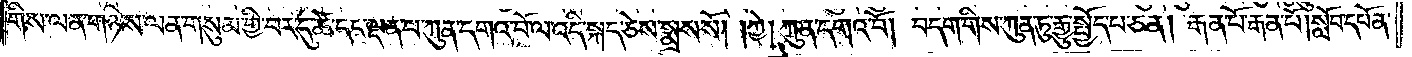གིས་ལན་གཉིས་ལན་གསུམ་གྱི་བར་དུ་ཚེ་དང་ལྡན་པ་ཀུན་དགའ་བོ་ལ་འདི་སྐད་ཅེས་སྨྲས་སོ། །ཀྱེ། ཀུན་དགའ་བོ། བདག་གིས་ཀུན་ཏུ་རྒྱུ་སྤྱོད་པ་ཅན། རྒན་པོ་རྒན་པོ། སློབ་དཔོན་
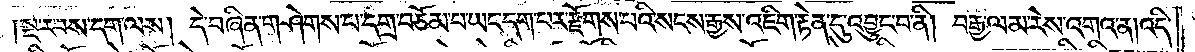སྔ་རབས་དག་ལས། དེ་བཞིན་གཤེགས་པ་དགྲ་བཅོམ་པ་ཡང་དག་པར་རྫོགས་པའི་སངས་རྒྱས་འཇིག་རྟེན་དུ་འབྱུང་བ་ནི། བརྒྱ་ལམ་རེས་འགའ་ན། འདི་
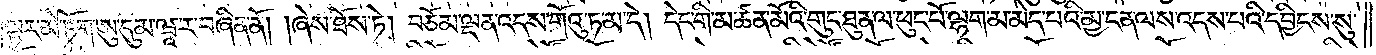ལྟར་མེ་ཏོག་ཨུ་དུམ་ཝཱ་ར་བཞིན་ནོ། །ཞེས་ཐོས་ཏེ། བཅོམ་ལྡན་འདས་གོའུ་ཏ་མ་དེ། དེང་གི་མཚན་མོའི་གུང་ཐུན་ལ་ཕུང་པོ་ལྷག་མ་མེད་པའི་མྱ་ངན་ལས་འདས་པའི་དབྱིངས་སུ་
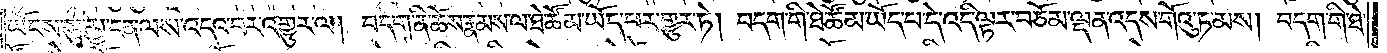ཡོངས་སུ་མྱ་ངན་ལས་འདའ་བར་འགྱུར་ལ། བདག་ནི་ཆོས་རྣམས་ལ་ཐེ་ཚོམ་ཡོད་པར་གྱུར་ཏེ། བདག་གི་ཐེ་ཚོམ་ཡོད་པ་དེ་འདི་ལྟར་བཅོམ་ལྡན་འདས་གོའུ་ཏ་མས། བདག་གི་ཐེ་
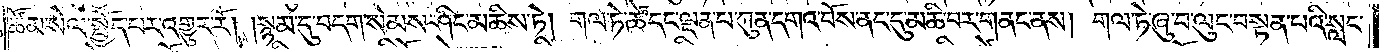ཚོམ་སེལ་སྤྱོད་པར་འགྱུར་རོ། །སྙམ་དུ་བདག་སེམས་ཤིང་མཆིས་ཏེ། གལ་ཏེ་ཚེ་དང་ལྡན་པ་ཀུན་དགའ་བོས་ནང་དུ་མཆི་བར་གནང་ནས། གལ་ཏེ་ཞུ་བ་ལུང་བསྟན་པའི་སླང་
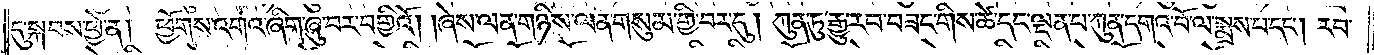དུ་སྐབས་ཕྱེ་ན། ཕྱོགས་འགའ་ཞིག་ཞུ་བར་བགྱིའོ། །ཞེས་ལན་གཉིས་ལན་གསུམ་གྱི་བར་དུ། ཀུན་ཏུ་རྒྱུ་རབ་བཟང་གིས་ཚེ་དང་ལྡན་པ་ཀུན་དགའ་བོ་ལ་སྨྲས་པ་དང༌། རབ་
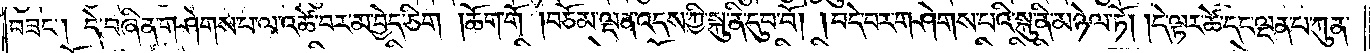བཟང༌། དེ་བཞིན་གཤེགས་པ་ལ་འཚེ་བར་མ་བྱེད་ཅིག །ཆོག་གོ །བཅོམ་ལྡན་འདས་ཀྱི་སྐུ་ནི་དུབ་བོ། །བདེ་བར་གཤེགས་པའི་སྐུ་ནི་མཉེལ་ཏོ། །དེ་ལྟར་ཚེ་དང་ལྡན་པ་ཀུན་
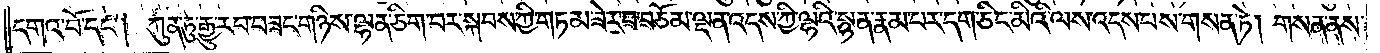དགའ་བོ་དང༌། ཀུན་ཏུ་རྒྱུ་རབ་བཟང་གཉིས་ལྷན་ཅིག་བར་སྐབས་ཀྱི་གཏམ་ཟེར་བ་བཅོམ་ལྡན་འདས་ཀྱི་ལྷའི་སྙན་རྣམ་པར་དག་ཅིང་མིའི་ལས་འདས་པས་གསན་ཏེ། གསན་ནས་
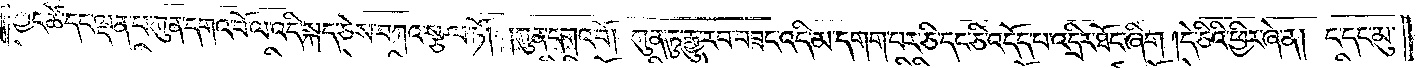ཀྱང་ཚེ་དང་ལྡན་པ་ཀུན་དགའ་བོ་ལ་འདི་སྐད་ཅེས་བཀའ་སྩལ་ཏོ། །ཀུན་དགའ་བོ། ཀུན་ཏུ་རྒྱུ་རབ་བཟང་འདི་མ་དགག་པར་ཅི་དང་ཅི་འདོད་པ་འདྲིར་ཐོང་ཞིག །དེ་ཅིའི་ཕྱིར་ཞེ་ན། ང་དང་མུ་
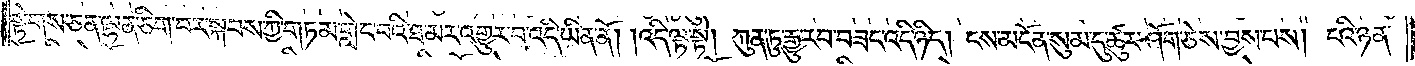སྟེགས་ཅན་ལྷན་ཅིག་བར་སྐབས་ཀྱི་གཏམ་གླེང་བའི་ཐ་མར་འགྱུར་བ་འདི་ཡིན་ནོ། །འདི་ལྟ་སྟེ། ཀུན་ཏུ་རྒྱུ་རབ་བཟང་འདི་ཉིད། ངས་མངོན་སུམ་དུ་ཚུར་ཤོག་ཅེས་བྱས་པས། ངའི་ཉན་
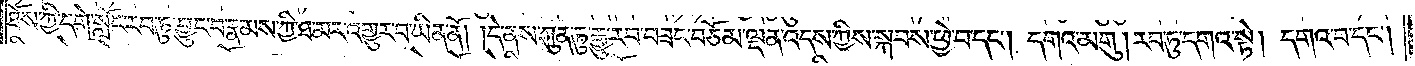ཐོས་ཀྱི་དགེ་སློང་རབ་ཏུ་བྱུང་བ་རྣམས་ཀྱི་ཐ་མར་འགྱུར་བ་ཡིན་ནོ། །དེ་ནས་ཀུན་ཏུ་རྒྱུ་རབ་བཟང་བཅོམ་ལྡན་འདས་ཀྱིས་སྐབས་ཕྱེ་བ་དང༌། དགའ་མགུ། རབ་ཏུ་དགའ་སྟེ། དགའ་བ་དང༌།
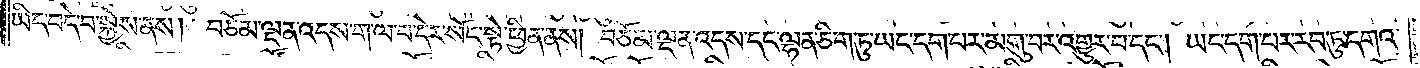ཡིད་བདེ་བ་སྐྱེས་ནས། བཅོམ་ལྡན་འདས་ག་ལ་བ་དེར་སོང་སྟེ་ཕྱིན་ནས། བཅོམ་ལྡན་འདས་དང་ལྷན་ཅིག་ཏུ་ཡང་དག་པར་མགུ་བར་འགྱུར་བ་དང༌། ཡང་དག་པར་རབ་ཏུ་དགའ་
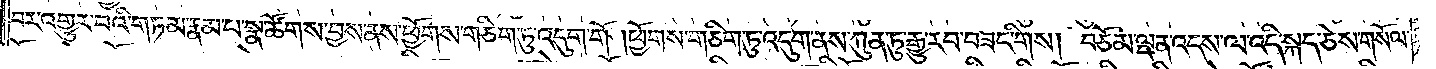བར་འགྱུར་བའི་གཏམ་རྣམ་པ་སྣ་ཚོགས་བྱས་ནས་ཕྱོགས་གཅིག་ཏུ་འདུག་གོ །ཕྱོགས་གཅིག་ཏུ་འདུག་ནས་ཀུན་ཏུ་རྒྱུ་རབ་བཟང་གིས། བཅོམ་ལྡན་འདས་ལ་འདི་སྐད་ཅེས་གསོལ་
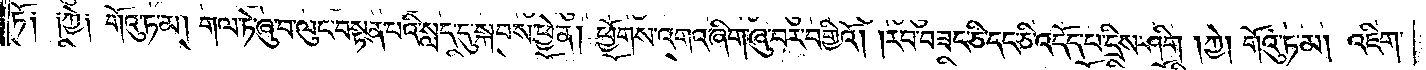ཏོ༑ ༑ཀྱེ༑ གོའུ་ཏ་མ། གལ་ཏེ་ཞུ་བ་ལུང་བསྟན་པའི་སླད་དུ་སྐབས་ཕྱེ་ན། ཕྱོགས་འགའ་ཞིག་ཞུ་བར་བགྱིའོ། །རབ་བཟང་ཅི་དང་ཅི་འདོད་པ་དྲིས་ཤིག །ཀྱེ། གོའུ་ཏ་མ། འཇིག་
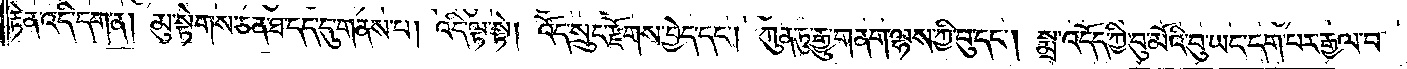རྟེན་འདི་དག་ན། མུ་སྟེགས་ཅན་ཐ་དད་དུ་གནས་པ། འདི་ལྟ་སྟེ། འོད་སྲུང་རྫོགས་བྱེད་དང༌། ཀུན་ཏུ་རྒྱུ་གནག་ལྷས་ཀྱི་བུ་དང༌། སྨྲ་འདོད་ཀྱི་བུ་མོའི་བུ་ཡང་དག་པར་རྒྱལ་བ་
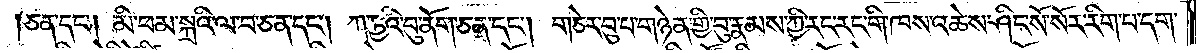ཅན་དང༌། མི་ཕམ་སྐྲའི་ལ་བ་ཅན་དང༌། ཀ་ཏྱའི་བུ་ནོག་ཅན་དང༌། གཅེར་བུ་པ་གཉེན་གྱི་བུ་རྣམས་ཀྱི་རང་རང་གི་ཁས་འཆེས་ཤིང་སོ་སོར་རིག་པ་དག་
